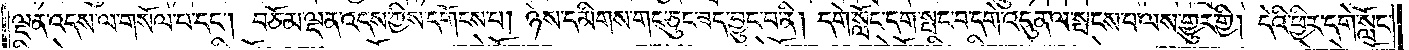ལྡན་འདས་ལ་གསོལ་པ་དང༌། བཅོམ་ལྡན་འདས་ཀྱིས་དགོངས་པ། ཉེས་དམིགས་གང་ཅུང་ཟད་བྱུང་བ་ནི། དགེ་སློང་དག་སྤང་བ་དགེ་འདུན་ལ་སྤངས་པ་ལས་གྱུར་གྱི། དེའི་ཕྱིར་དགེ་སློང་
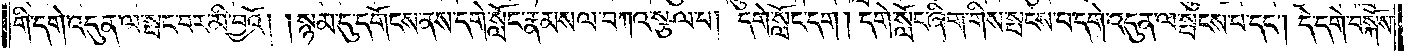གི་དགེ་འདུན་ལ་སྤང་བར་མི་བྱའོ། །སྙམ་དུ་དགོངས་ནས་དགེ་སློང་རྣམས་ལ་བཀའ་སྩལ་པ། དགེ་སློང་དག །དགེ་སློང་ཞིག་གིས་སྤངས་པ་དགེ་འདུན་ལ་སྤངས་པ་དང༌། དེ་དགེ་བསྐོས་
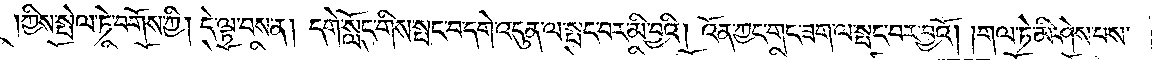ཀྱིས་སྤེལ་ཏེ་བགས་ཀྱི། དེ་ལྟ་བས་ན། དགེ་སློང་གིས་སྤང་བ་དགེ་འདུན་ལ་སྤང་བར་མི་བྱའི། འོན་ཀྱང་གང་ཟག་ལ་སྤང་བར་བྱའོ། །གལ་ཏེ་མི་ཤེས་པས་
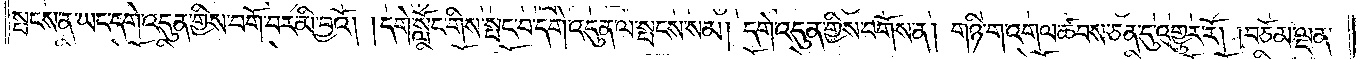སྤངས་ན་ཡང་དགེ་འདུན་གྱིས་བགོ་བར་མི་བྱའོ། །དགེ་སློང་གིས་སྤང་བ་དགེ་འདུན་ལ་སྤངས་སམ། དགེ་འདུན་གྱིས་བགོས་ན། གཉི་ག་འགལ་ཚབས་ཅན་དུ་འགྱུར་རོ། །བཅོམ་ལྡན་
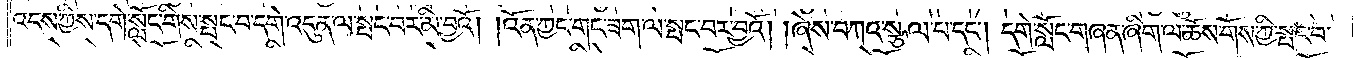འདས་ཀྱིས་དགེ་སློང་གིས་སྤང་བ་དགེ་འདུན་ལ་སྤང་བར་མི་བྱའོ། །འོན་ཀྱང་གང་ཟག་ལ་སྤང་བར་བྱའོ། །ཞེས་བཀའ་སྩལ་པ་དང༌། དགེ་སློང་གཞན་ཞིག་ལ་ཆོས་གོས་ཀྱི་སྤང་བ་
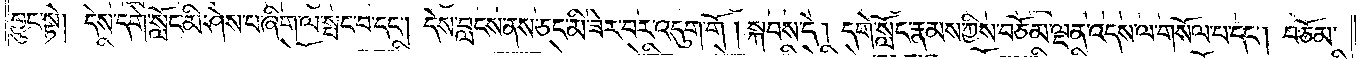བྱུང་སྟེ། དེས་དགེ་སློང་མི་ཤེས་པ་ཞིག་ལ་སྤང་བ་དང༌། དེས་བླངས་ནས་ཅང་མི་ཟེར་བར་འདུག་གོ །སྐབས་དེ། དགེ་སློང་རྣམས་ཀྱིས་བཅོམ་ལྡན་འདས་ལ་གསོལ་པ་དང༌། བཅོམ་
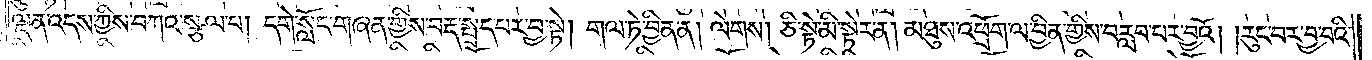ལྡན་འདས་ཀྱིས་བཀའ་སྩལ་པ། དགེ་སློང་གཞན་གྱིས་བརྡ་སྤྲད་པར་བྱ་སྟེ། གལ་ཏེ་བྱིན་ན། ལེགས། ཅི་སྟེ་མི་སྟེར་ན། མཐུས་འཕྲོག་ལ་བྱིན་གྱིས་བརླབ་པར་བྱའོ། །རུང་བར་བྱ་བའི་
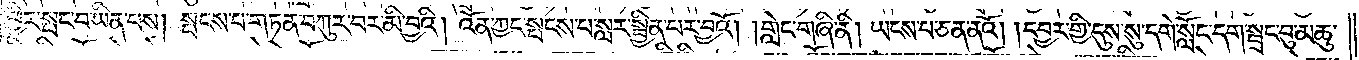ཕྱིར་སྤང་བ་ཡིན་པས། སྤངས་པ་གཏན་བཀུར་བར་མི་བྱའི། འོན་ཀྱང་སྤངས་པ་སླར་སྦྱིན་པར་བྱའོ། །གླེང་གཞི་ནི། ཡངས་པ་ཅན་ནའོ། །དབྱར་གྱི་དུས་སུ་དགེ་སློང་དག་སྦྲང་བུ་མཆུ་
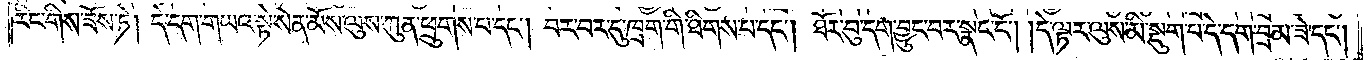རིང་གིས་ཟོས་ཏེ། དེ་དག་གཡའ་སྟེ་སེན་མོས་ལུས་ཀུན་ཕྲུགས་པ་དང༌། བར་བར་དུ་ཁྲག་གི་ཐིགས་པ་དང༌། ཐོར་བུ་དག་བྱུང་བར་སྣང་ངོ༌། །དེ་ལྟར་ལུས་མི་སྡུག་པ་དེ་དག་བྲམ་ཟེ་དང༌།
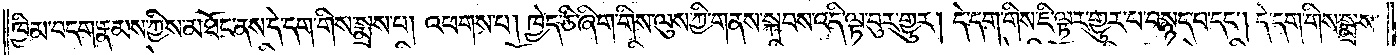ཁྱིམ་བདག་རྣམས་ཀྱིས་མཐོང་ནས་དེ་དག་གིས་སྨྲས་པ། འཕགས་པ། ཁྱེད་ཅི་ཞིག་གིས་ལུས་ཀྱི་གནས་སྐབས་འདི་ལྟ་བུར་གྱུར། དེ་དག་གིས་ཇི་ལྟར་གྱུར་པ་བསྙད་པ་དང༌། དེ་དག་གིས་སྨྲས་
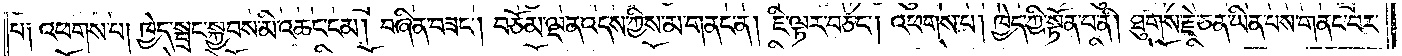པ༑ འཕགས་པ། ཁྱེད་སྦྲང་སྐྱབས་མི་འཆང་ངམ། བཞིན་བཟང༌། བཅོམ་ལྡན་འདས་ཀྱིས་མ་གནང་ན། ཇི་ལྟར་བཅང༌། འཕགས་པ། ཁྱེད་ཀྱི་སྟོན་པ་ནི། ཐུགས་རྗེ་ཅན་ཡིན་པས་གནང་བར་
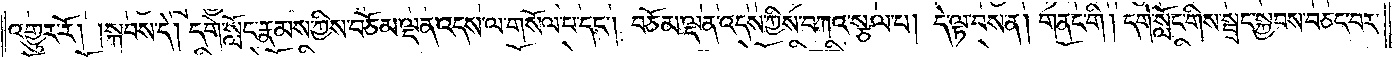འགྱུར་རོ། །སྐབས་དེ། དགེ་སློང་རྣམས་ཀྱིས་བཅོམ་ལྡན་འདས་ལ་གསོལ་པ་དང༌། བཅོམ་ལྡན་འདས་ཀྱིས་བཀའ་སྩལ་པ། དེ་ལྟ་བས་ན། གནང་གི །དགེ་སློང་གིས་སྦྲང་སྐྱབས་བཅང་བར་
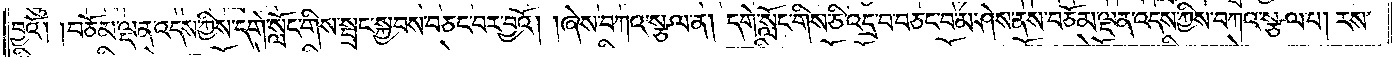བྱའོ། །བཅོམ་ལྡན་འདས་ཀྱིས་དགེ་སློང་གིས་སྦྲང་སྐྱབས་བཅང་བར་བྱའོ། །ཞེས་བཀའ་སྩལ་ན། དགེ་སློང་གིས་ཅི་འདྲ་བ་བཅང་བ་མ་ཤེས་ནས་བཅོམ་ལྡན་འདས་ཀྱིས་བཀའ་སྩལ་པ། རས་
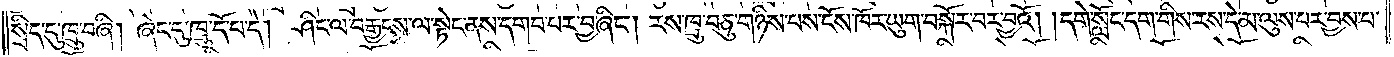སྲིད་དུ་ཁྲུ་བཞི། ཞེང་དུ་ཁྲུ་དོ་པ་དེ། ཤིང་ལ་བརྒྱངས་ལ་སྟེང་ནས་དགབ་པར་བྱ་ཞིང༌། རས་ཁྲུ་བཅུ་གཉིས་པས་ངོས་ཁོར་ཡུག་བསྐོར་བར་བྱའོ། །དགེ་སློང་དག་གིས་རས་དེ་མ་ལུས་པར་བྱས་པ་
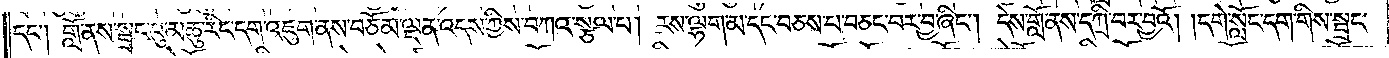དང༌། གློ་ནས་སྦྲང་བུ་མཆུ་རིང་དག་འཇུག་ནས་བཅོམ་ལྡན་འདས་ཀྱིས་བཀའ་སྩལ་པ། རས་ལྷག་མ་དང་བཅས་པ་བཅང་བར་བྱ་ཞིང༌། དེས་གློ་ནས་དཀྲི་བར་བྱའོ། །དགེ་སློང་དག་གིས་སྦྲང་
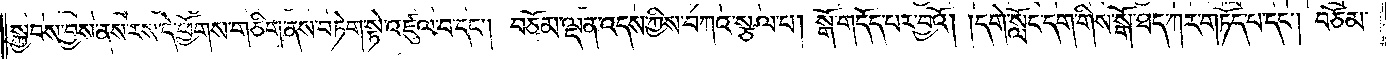སྐྱབས་བྱས་ནས་རས་དེ་ཕྱོགས་གཅིག་ནས་བཏེག་སྟེ་འཛུལ་བ་དང༌། བཅོམ་ལྡན་འདས་ཀྱིས་བཀའ་སྩལ་པ། སྒོ་གདོད་པར་བྱའོ། །དགེ་སློང་དག་གིས་སྒོ་ཐད་ཀར་གཏོད་པ་དང༌། བཅོམ་
